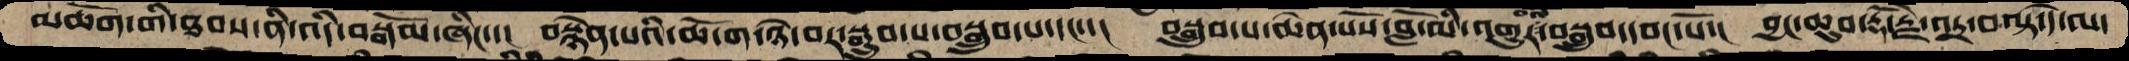མཆོག་གི་ཐབས་ནི་འདི་བསྒོམ་ཞིང་་།  བསྙེན་པའི་ཆོ་ག་ཉེ་བར་སྒྲུབ་པ་བསྒྲུབ་པ་དང་་།  བསྒྲུབ་པ་ཆེན་པོས་བློ་མི་འགྱུར་བསྒྲུབ་དབང་པོ་།  བྱང་ཆུབ་རྡོ་རྗེ་འདྲ་བ་སྟ་དེ་ལ་
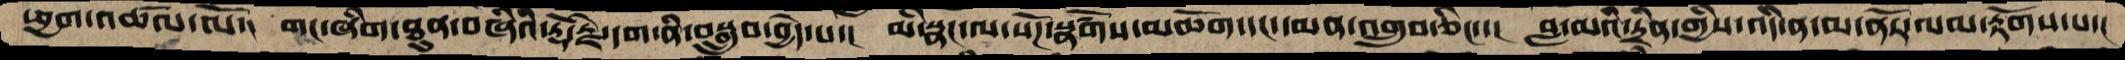ཕྱག་འཚལ་ལོ་།  གང་ཞིག་ཐུན་བཞིའི་རྡོ་རྗེ་དག་ནི་བསྒྲུབ་བྱེད་པ་།  མི་སྣང་ལ་སོཌ་སྣཚོགས་མཆོག་དང་དམན་འགྲུབ་ཅིང་་།  བླ་མའི་དྲིན་གྱིས་འདི་ན་མ་ནོར་ལམ་རྟོགས་པ་།
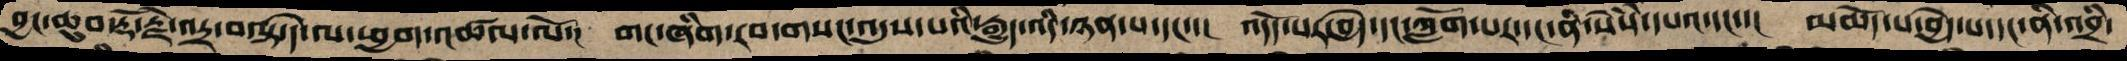བྱང་ཆུབ་རྡོ་རྗེ་འདྲ་བ་སྟ་དེ་ལ་ཕྱག་འཚལ་ལོ་།  གང་ཞིག་རབ་གསང་འདུས་པའི་རྒྱུད་འདི་ཉན་པ་དང་་།  འདོད་པར་བྱེད་དང་ཀློག་པར་དང་ནི་སེཾས་དཔའ་དང་་།  མཆོད་པ་བྱེད་པ་དང་ནི་འབྲི་
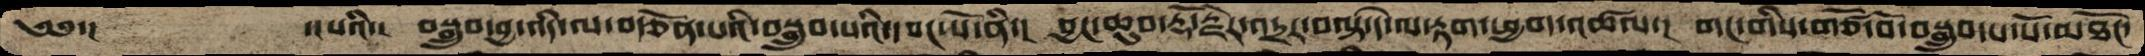༄༅་།  ་།པའི་་  བསྒྲུབ་བྱ་འདི་ལ་བརྩོན་པའི་བསྒྲུབ་པའི་དབང་པོ་ནི་།  བྱང་ཆུབ་རྡོ་རྗེར་འདྲར་བལྟ་དེ་ལ་རྟག་ཕྱག་འཚལ་།  གང་གིས་གཙོ་བོ་བསྒྲུབ་པ་པོ་མཐོང་
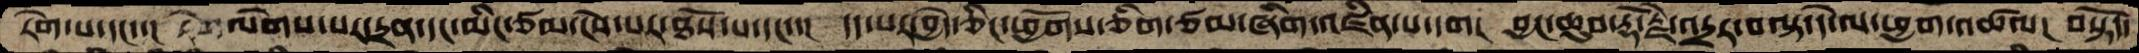རེག་པ་དང་།  ལེགས་པར་དྲན་དང་མིང་ཙམ་ངེས་པར་ཐོས་པ་དང་་།  དད་པར་བྱེད་ཅིང་ཕྱོགས་ཅིག་ཙམ་ཞིག་འཛིན་པ་དག།  བྱང་ཆུབ་རྡོ་རྗེ་འདྲར་བལྟ་དེ་ལ་ཕྱག་འཚལ།  བསྟོད་
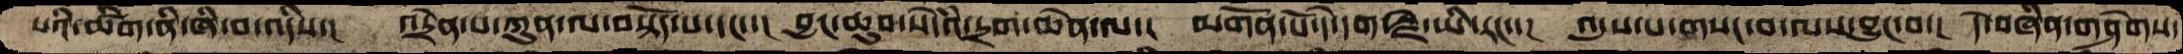པའི་ཚིག་ནི་ཞི་བ་འདིས་།  འདྲེན་པ་ཀུན་ལ་བསྟོད་པ་དང་།  བྱང་ཆུབ་སེདཾའ་དྲག་ཆེན་ལ་།  མགོན་པོ་དེ་དག་རྗེ་ཡི་རང་་།  འདུས་པ་གསང་བ་ལས་བྱུང་བ་།  དེ་བཞིན་གཤེགས་
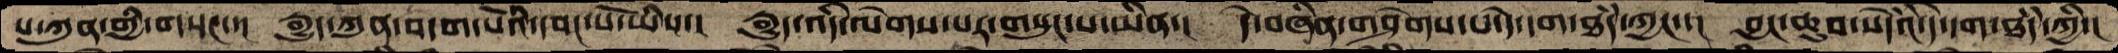པ་ཀུན་གྱི་གསང་་།  རྒྱུད་ཀུན་བདག་པོའི་དབང་པོ་ཡིས་།  རྒྱུད་འདི་ལེགས་པར་གསུང་པ་ཡིན་།  དེ་བཞིན་གཤེགས་པ་དེ་དག་ཐདཾ་ཀྱང་་།  བྱང་ཆུབ་སེདཾའ་དེ་དག་ཐདཾ་ཀྱི་།
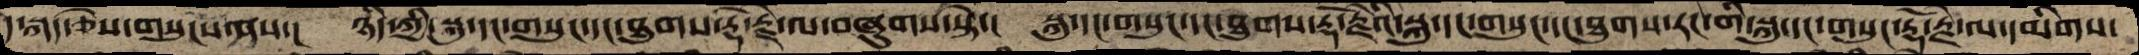དེ་སྐད་ཅེས་གསུངས་ནས་།  ཉིད་ཀྱི་སྐུ་དང་གསུང་དང་ཐུགས་རྡོ་རྗེ་ལ་བཞུགས་སྟེ་།  སྐུ་དང་གསུང་དང་ཐུགས་རྡོ་རྗེའི་སྐུ་དང་གསུང་དང་ཐུགས་རང་གི་སྐུ་དང་གསུང་རྡོ་རྗེ་ལ་དམིགས་
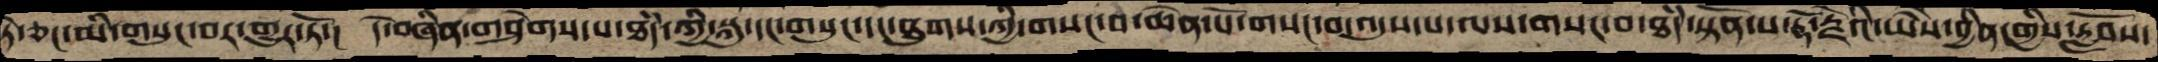ཏེ་ཅང་མི་གསུང་བར་གྱུར་ཏོ་།  དེ་བཞིན་གཤེགས་པ་ཐདཾ་ཀྱི་སྐུ་དང་གསུང་དང་ཐུགས་ཀྱི་གསང་བ་ཆེན་པོ་གསང་བ་འདུས་པ་ལས་གསང་བ་ཐདཾ་སྟོན་པ་རྡོ་རྗེའི་ཡཻས་བྱིན་གྱིས་རློབས་
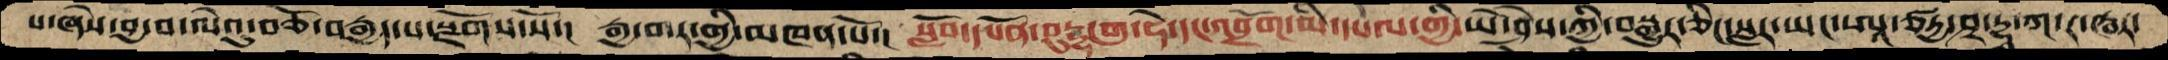པ་ཞེས་བྱ་བ་ལེའུ་བཅོ་བརྒྱད་པ་སྫོགས་སོ་།  རྒྱ་གར་གྱི་མཁན་པོ་།  སློབ་དཔོན་བུདྡྷ་གུ་ཧེ་དང་འབྲོག་མི་དཔལ་གྱི་ཡེ་ཤེས་ཀྱི་བསྒྱུར་ཅིང་སླར་ཡང་ཨཱ་ཙརྱ་ཤྲ་དྷཱ་ཀ་ར་ཝར་
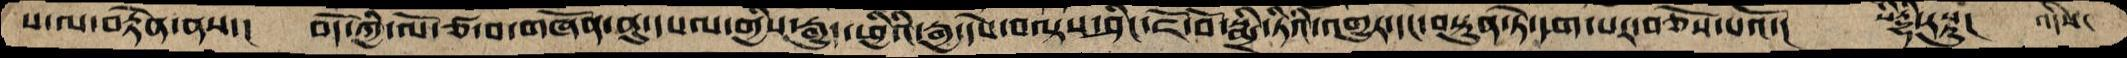པ་ལ་བརྟེན་ནས་།  བོད་ཀྱི་ལོ་ཙ་བ་གཞོན་ནུ་དཔལ་གྱིས་རྒྱུད་ཕྱིའི་རྒྱ་དེས་བལྟས་ཤིང་ཇོ་བོ་སྨྲི་ཏིའི་འགྱུར་དང་བསྟུན་ཏེ་དག་པར་བཅོས་པའོ་།  སིདྡྷི་རསྟུ།  འདིས་
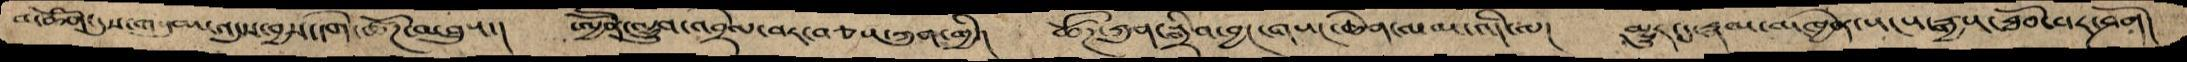མཚོན་དུས་གསུམ་འདུས་བྱས་དགེ་ཚོཌ་མཐུས་། ཨྱཽན་ལྷྲུབ་འབྲེལ་བར་བཅས་ཀུན་གྱི་། ཚོཌ་ཀུན་སྒྲིབ་བྱང་གསང་ཆེན་ལམ་འདི་ལ། མྱུར་དུ་རྣམ་མཁྱེན་སངས་རྒྱས་ཐོབ་པར་ཤོག།
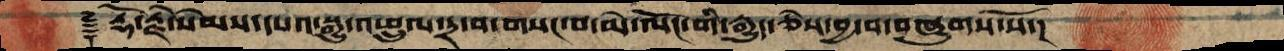࿑ རྡོ་རྗེ་སེམས་དཔའ་སྒྱུ་འཕྲུལ་དྲ་བ་གསང་བ་མེ་ལོང་གི་རྒྱུད་ཅེས་བྱ་བ་བཞུགས་སོ་།
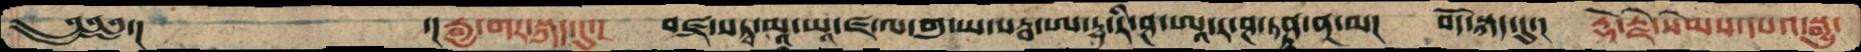༄༅༅་།        ་།རྒྱ་གར་སྐད་དུ་།  བཛྲ་སཏྭ་མཱ་ཡཱ་ཛ་ལ་གུ་ཡ་སརྦ་ཨ་དྷ་རི་ཤ་ཨཱ་ར་ཤ་ཏནྟ་ནཱ་མ།  བོད་སྐད་དུ་། རྡོ་རྗེ་སེམས་དཔའ་སྒྱུ་
